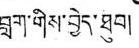བླག་གིས་བྱེད་ཐུབ།
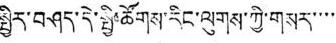སྤྱིར་བཤད་དེ་སྤྱི་ཚོགས་རིང་ལུགས་ཀྱི་གསར་་་་་
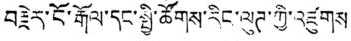བརྗེར་ངོ་རྒོལ་དང་སྤྱི་ཚོགས་རིང་ལུཊ་ཀྱི་འཛུགས
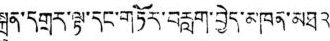སྐྲུན་དགྲར་ལྟ་དང་གཏོར་བརླག་བྱེད་མཁན་མཐའ་
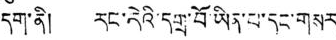དག་ནི། རང་རེའི་དགྲ་བོ་ཡིན་པ་དང་གསར་
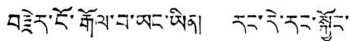བརྗེར་ངོ་རྒོལ་བ་ཡང་ཡིན། རང་རེ་རང་སྐྱོང་
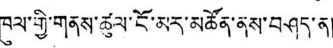ཁུལ་གྱི་གནས་ཚུལ་ངོ་མར་མཚོན་ནས་བཤད་ན།
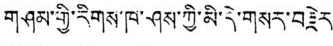གཤམ་གྱི་རིགས་ཁ་ཤས་ཀྱི་མི་དེ་གསར་བརྗེར་་
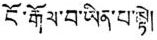ངོ་རྒོལ་བ་ཡིན་པ་སྟེ།
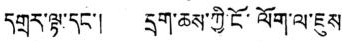དགྲར་ལྟ་དང་། དྲག་ཆས་ཀྱི་ངོ་ལོག་ལ་ཇུས་
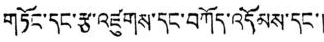གཏོང་དང་རྩ་འཛུགས་དང་བཀོད་འདོམས་དང་།
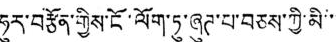ཧུར་བརྩོན་གྱིས་ངོ་ལོག་ཏུ་ཞུཊ་པ་བཅས་ཀྱི་མི་་་
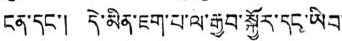ངན་དང་། དེ་མིན་ཇག་པ་ལ་རྒྱབ་སྐྱོར་དང་ཡིབ་
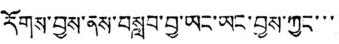རོགས་བྱས་ནས་བསླབ་བྱ་ཡང་ཡང་བྱས་ཀྱང་་་་
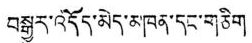བསྒྱུར་འདོད་མེད་མཁན་དང་གཅིག
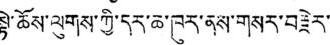སྟེ་ཆོས་ལུགས་ཀྱི་དར་ཆ་ཁུར་ནས་གསར་བརྗེར་་
